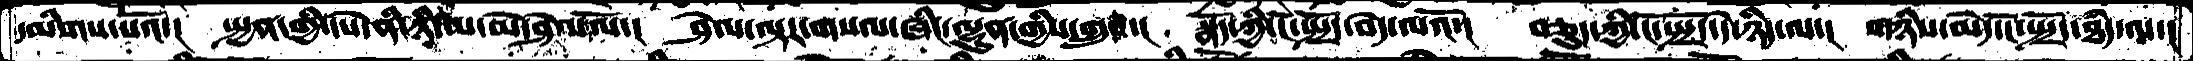དམིགས་པའོ་།  སྤྱན་གྱི་དཔེ་ནི་ཉི་མ་མེ་ཤེལ་ལོ་།  ཤེལ་ལྟར་གསལ་ཞིང་ལྷུན་གྱིས་གྲུབ་།  སྣོད་ཀྱི་ངོ་སྤྲོད་བདེ་ལའོ་།  བཅུད་ཀྱི་ངོ་སྤྲོད་དེ་ཉིད་ལ་།  གཉིས་མེད་ངོ་སྤྲོད་ཐཾད་ལ་།
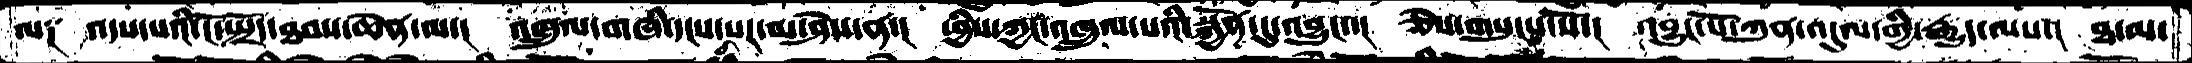ལ༑  འདས་པའི་ངོ་སྤྲོད་ཐབས་ཆེན་ལ་།  འཁྲུལ་གཞི་དངས་པར་མ་ཤེས་ན་།  ཕྱིས་ཀྱང་འཁྲུལ་པའི་སྐྱོན་དུ་འབྱུང་་།  ཅེས་གསུངས་སོ་།  འབྱུང་པོ་ཀུན་འདུལ་གྱི་རྒྱུད་ལས་།  ཐ་མ་
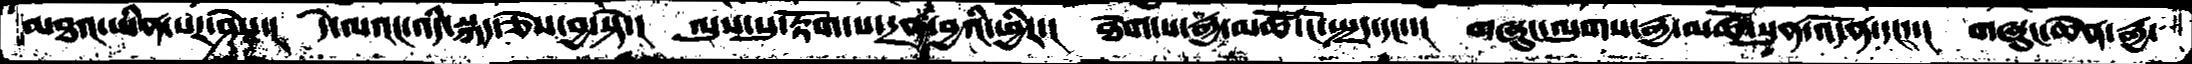མཐའ་ཡིན་པར་ཤེས་།  དེ་ལའང་འདི་སྐད་ཅེ་བྱ་སྟེ་།  ལུས་སུ་རྟོག་པ་དྲན་བྱའི་ཕྱིར་།  ཐེག་པ་རྒྱ་མཚོ་ངོ་སྤྲད་དང་་།  གཞུང་ལུགས་རྒྱ་མཚོ་སྟན་དོན་དང་་།  གཞུང་ཆེན་རྒྱ་
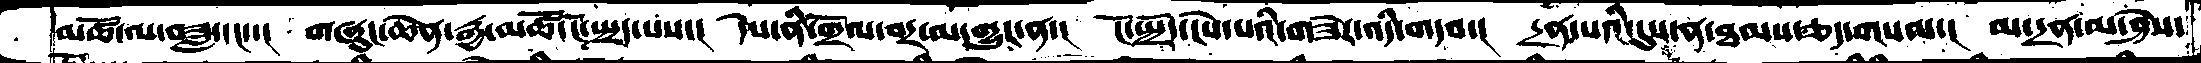མཚོ་ལ་བཟླ་དང་་།  གཞུང་ཆེན་རྒྱ་མཚོ་ངོ་སྤྲད་པས་།  དེས་ནི་གྲོལ་བར་མ་གྱུར་ན་།  ངོ་སྤྲོད་ངེས་པའིི་གཟེར་འདི་གདབ་།  དྲན་པའི་དུས་ན་ཐམས་ཅད་གསལ་།  མ་དྲན་མ་ཤེས་
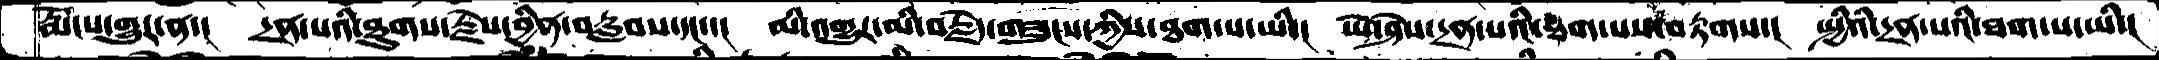རྨོངས་གྱུར་ན་།   དྲན་པའི་ཐུགས་རྗེས་བྱིན་བརླབས་དང་་།   མི་འགྱུར་མི་བརྗེད་གཟུངས་ཀྱིས་ཐག་པ་ཡི་།  ཡེ་ཤེས་དྲན་པའི་ཐག་པས་བརྟགས་།  སྤྱིའི་དྲན་པའི་ཐག་པ་ཡི་།
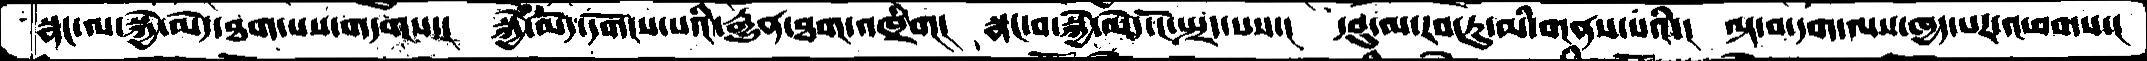སྣང་ལ་སྐྱེ་མེད་ཐག་པས་གདགས་།   སྐྱེ་མེད་དགོངས་པའི་རྒྱུན་ཐག་འཁྲིག།  སྣང་བ་སྐྱེ་མེད་ངོ་སྤྲད་པས་།  དབུ་མ་རབ་ཏུ་མི་གནས་པའི་།  ལྟ་བ་དག་ལས་ཁྱད་པར་འཕགས་།
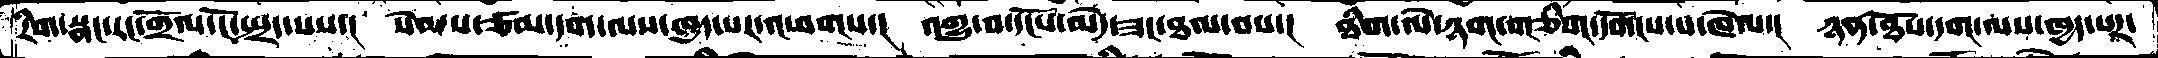རིག་སྣང་རང་གྲོལ་ངོ་སྤྲད་པས་།  སེམས་ཙམ་དག་ལས་ཁྱད་པར་འཕགས་།  འགྱུ་བ་དངོས་མེད་ཟང་ཐལ་བས་།  ཐིག་ལེ་ཉག་གཅིག་དགོངས་པ་ཁེལ་།  ཉན་ཐོས་དག་ལས་ཁྱད་པར་
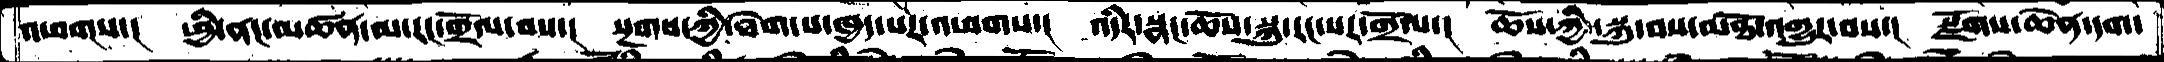འཕགས་།  ཕྱི་ནང་མཚན་མ་རང་གྲོལ་བས་།   སྔགས་ཀྱི་ཐེག་པ་ཁྱད་པར་འཕགས་།  འདིར་སྣང་ཆོས་སྐུ་རང་སར་གྲོལ་།  ཆོས་ཀྱི་སྐུ་བས་མཐོ་འགྱུར་བས་།  སྫོགས་ཆེན་དག་
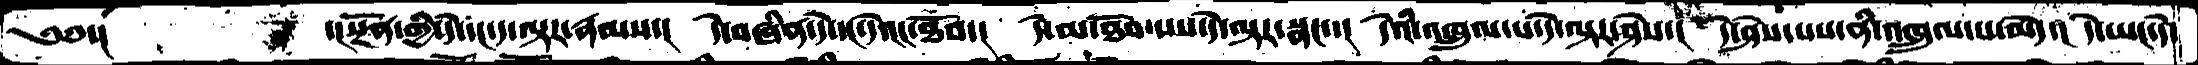༄༅་།       ་།སྔོན་གྱི་དེ་དང་ད་ལྟར་རྣམས་།  དེ་བཞིན་དེ་དང་དེའང་ཐོབ་།   དེ་མ་ཐོབ་པས་དེ་ལྟར་སྣང་་།  དེའི་འཁྲུལ་པ་དེ་ལྟར་ཤེས་།  དེ་ཤེས་པས་ནི་འཁྲུལ་པ་མེད་།  དེ་ཡང་དེ་
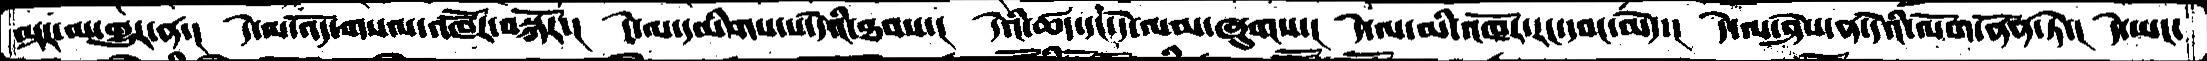ལྟར་མ་གྱུར་ན་།   དེ་ལ་འོད་གསལ་འཁཽར་བསྐོར་།   དེ་ལ་དམིགས་པ་དེའི་ཐབས་།  དེའི་ཚད་དང་དེ་ལམ་ཞུགས་།   དེ་ལ་མི་འཁོར་རང་དབང་མེད་།  དེ་ལ་ཤེས་ན་དེའི་ལོག་ནོན་ཏེ་།  དེ་ཡང་
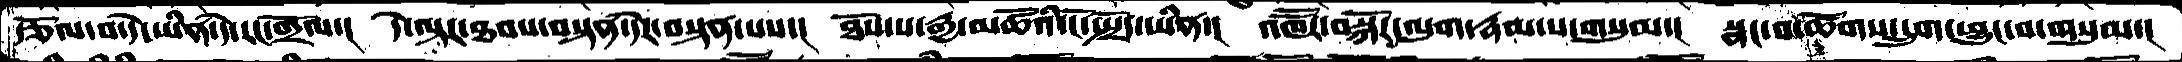རྩོལ་བ་དེ་ཡིན་དེ་རང་གྲོལ་།་  དེ་ལྟར་ཐབས་བསྟན་དེར་བསྟན་པས་།  ཐོས་པ་རྒྱ་མཚོའི་ངོ་སྤྲོད་ཡིན་།   འཁཽར་བསྐོར་ལུག་རྣམ་པ་གསུམ་།  སྣང་བ་ཚོགས་དྲུག་ཕྱུང་བ་གསུམ་།
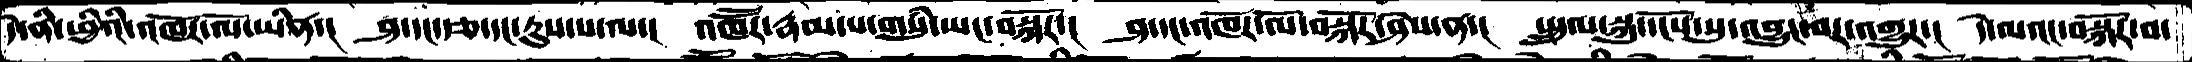དེ་ནི་ཕྱིའི་འཁོར་ལོ་ཡིན་།  ཤ་དང་རྩ་དང་རུས་པ་ལ་།   འཁཽར་རྣམ་པ་གསུཾ་ཡང་བསྐོར་།  ཤ་དང་འཁོར་ལོ་བསྐོར་ཤེས་ན་།  སྤྲུལ་སྐུ་དངོས་སུ་འབྱུང་བར་འགྱུར་།  དེ་ལའང་བསྐོར་བ་
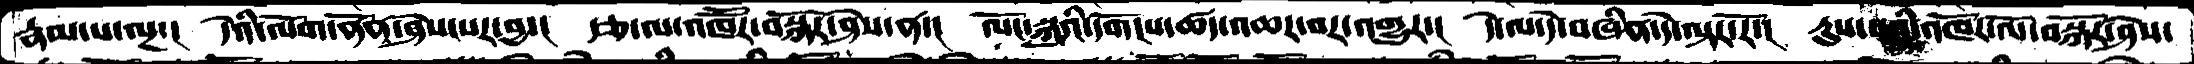རྣམ་པ་ལྔ་།  དེའི་ལོག་ནོན་ཤེས་པར་བྱ་།   རྩ་ལ་འཁཽར་བསྐོར་ཤེས་ན་།  ལོངས་སྐུའི་དགོངས་ཚད་འཆར་བར་འགྱུར་།  དེ་ལ་དེ་བཞིན་དེ་ལྟར་རོ་།  རུས་པའི་འཁོར་ལོ་བསྐོར་ཤེས་
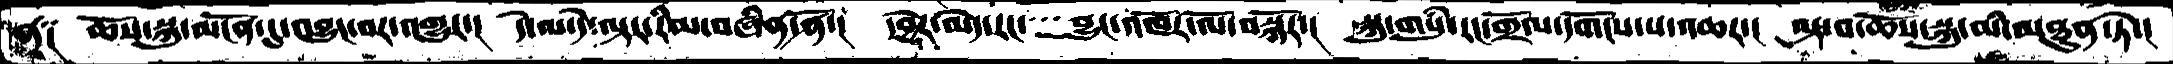ན༑  ཆོས་སྐུ་མངོན་དུ་འབྱུང་བར་འགྱུར་།  དེ་ལ་དེ་ལྟར་རིམ་བཞིན་ནོ་།  དབྱེར་མེད་རང་    བྱུང་འཁོར་ལོ་བསྐོར་།  སྐུ་གསུཾ་རང་གྲོལ་དགོངས་པ་འཆར་།  ལྟ་བ་ཆོས་སྐུ་མི་མཐུན་ཏེ་།
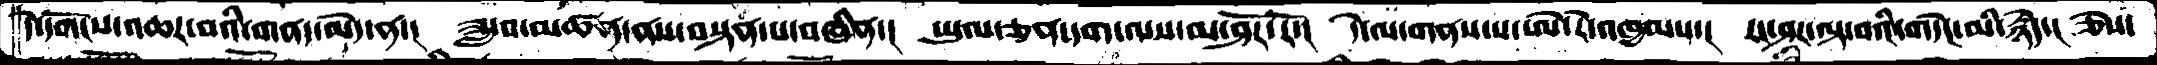དེ་དགོངས་འཆར་བའི་གནད་མེད་ན་།  ཟླ་བ་མཚན་ནས་བསྟན་པ་བཞིན་།  ཡུལ་ཅན་དག་ལས་མ་ཤོར་རོ་།  དེ་ལ་གནས་པ་ཨེ་རེ་འཁྱམས་།  རང་ཤར་ལྟ་བའི་གདེང་མི་རྙེད་། ཅེས་
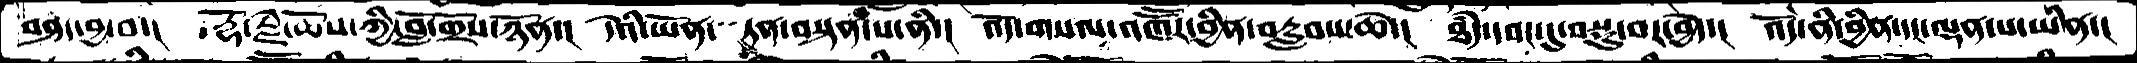བཤད་བྱ་བ་།  རྡོ་རྗེ་ཆོས་ཀྱི་བློ་གྲོས་ཉོན་།  དེའི་ཡོན་  ཏན་བསྟན་པ་ནི་།  འོད་གསལ་འཁཽར་བྱིན་བརླབས་ཆེ་།  ཐཾད་དབང་དུ་བསྡུ་བར་བྱེད་།  འོད་ནི་བྱིན་དང་ལྡན་པ་ཡིན་།
